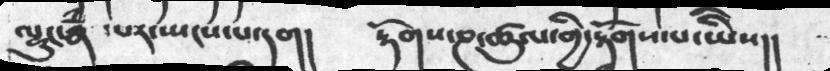ལྷུང་རྣཾ  ་པར་སྤངས་པ་དག།    རྟོགས་ཎ་ཚུལ་གྱི་རྟོགས་པ་ཡིས།།
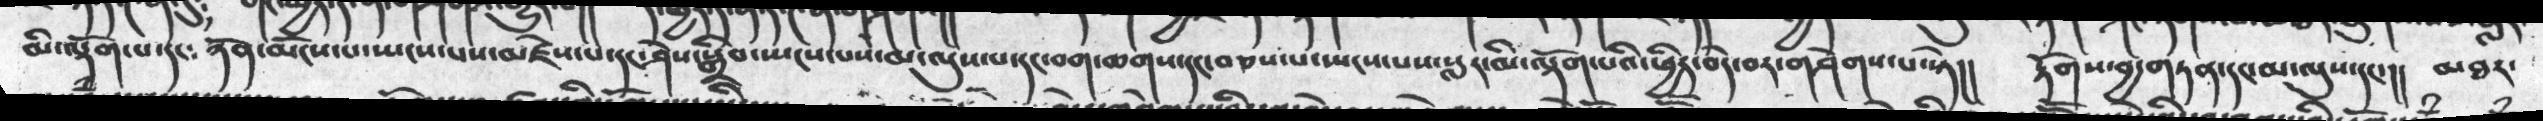མི་ལྡོག་པ་དང༴   ཉོན་མོངས་པ་སྤངས་པས་མཛེས་པ་དང་ཤེས་སྒྲིབ་སྤངས་པས་མ་ལུས་པ་དང་བག་ཆགས་དང་བཅས་པ་སྤངས་པས་སླར་མི་ལྡོག་པའི་ཕྱིར་བདེ་བར་གཤེགས་པ་སྟེ།།  རྟོགས་བྱ་གཏན་དང་མ་ལུས་དང་།།  མཐར་
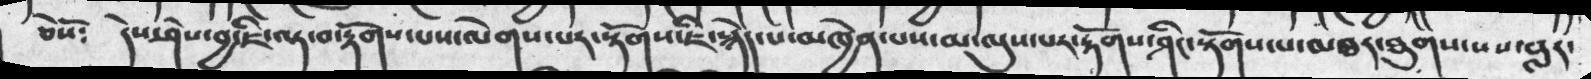ཅེསོ༴  དེས་ཤེས་བྱ་ཇི་ལྟ་བ་རྟོགས་པས་ལེགས་པར་རྟོགས་ཇི་སྙེད་པ་མཁྱེན་པས་མ་ལུས་པར་རྟོགས་ཤིང་རྟོགས་པ་མཐར་ཐུགས་པས་སླར་
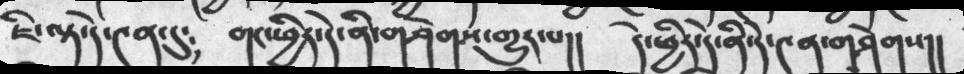ཇི་ལྟ་དེ་༤ན་དུ༴  གང་ཕྱིར་དེ་ནི་གཤེགས་གྱུར་པ།།  དེ་ཕྱིར་དེ་ནི་དེ་༤ན་གཤེགས།།
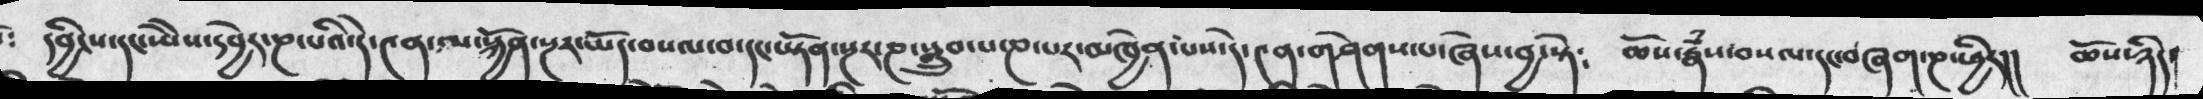༴   དབྱིངས་དང་ཡེེས་དབྱེར་ཎ་པའི་དེ་༤ན་ལ་སྐྱོན་སྔར་ཡོད་བསལ་བ་དང་ཡྟོན་སྔར་ཎ་སྒྲུབ་པ་ཎ་པར་མཁྱེན་པས་དེ་༤ན་གཤེགས་པ་ཞེས་བྱ་སྟེ༴  ཆོས་རྣཾས་བསལ་དང་བཞག་ཎ་ཕྱིར།།  ཆོས་ཉིད་
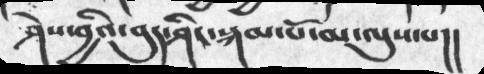ཤེས་བྱའི་བུད་ཤིང་སྐམ་པོ་མ་ལུས་པ།།
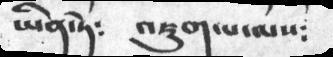ཡིན་ཏེ༴  འཇུག་པ་ལས༴
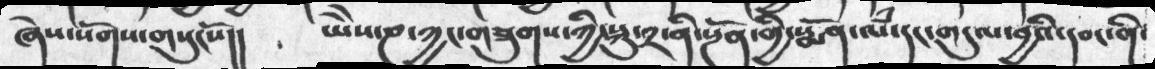ཞེས་སོགས་གསུངསོ།།  ཡཻས་ཎ་ཀྱང་གཟུགས་ཀྱི་སྐུ་༢་ནི་སྔོན་གྱི་སྨོན་ལཾ་དང་གདུལ་བྱའི་དབང་གི་
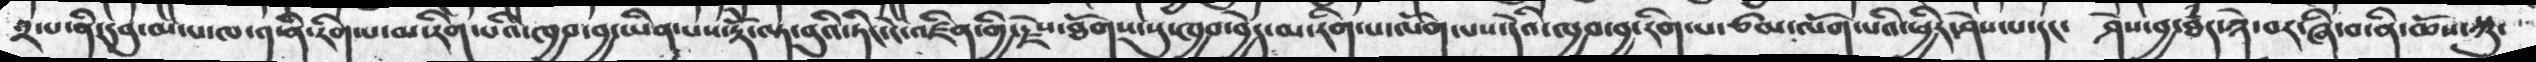༢་པ་ནི་དབུ་མ་པ་ཁ་༡་ནི་རིགས་མ་རིག་པའི་ཁྱབ་བྱ་ཡིན་པས་རྡོེ་ལྟ་བུའི་ཏིང་ངེ་འཛིན་གྱི་རྗེས་ཐོགས་སུ་ཁྱབ་བྱེས་མ་རིག་པ་ལོག་པས་དེའི་ཁྱབ་བྱ་རིག་པ་ཙམ་ལོག་པའི་ཕྱིར་ཤེས་པ་དང་   ཤེས་བྱ་ཐཾད་ཉེ་བར་ཞི་བ་ནི་ཆོས་སྐུ་
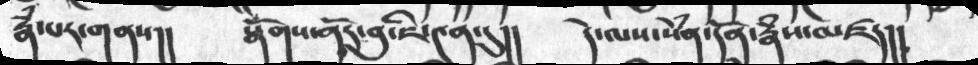རྣཾ་པར་གནས།།  སྣོགས་ནོར་བུ་ཇི་༤ན་དུ།།  དེ་ལས་སེཾན་དོན་རྣཾས་མཛད།།
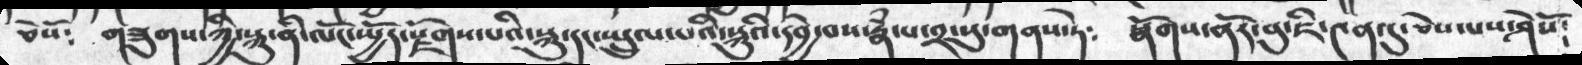ཅེསོ༴  གཟུགས་ཀྱི་སྐུ་ནི་ལོང་སྤྱོད་རྫོགས་པའི་སྐུ་དང་སྤྲུལ་པའི་སྐུའི་དབྱེ་བས་རྣཾ་པ་༢་སུ་གནས་ཏེ༴  སྣོགས་ནོར་བུ་ཇི་༤ན་དུ་ཅེས་པས་ཤེསོ།
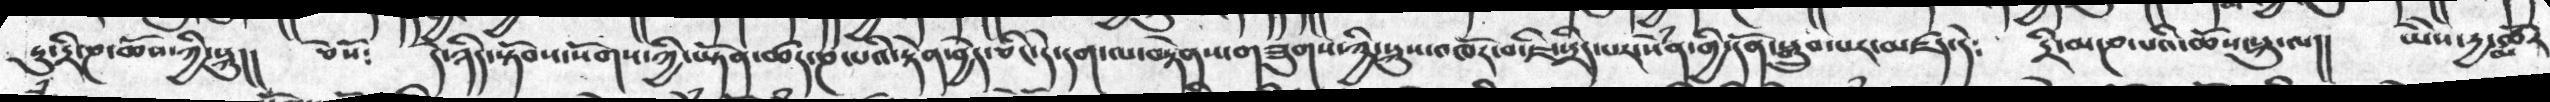ཏུ་དྲི་ཎ་ཆོས་ཀྱི་སྐུ།།   ཅེསོ༴   དེ་ཉིད་སྟོབས་སོགས་ཀྱི་ཡྟོན་ཚད་ཎ་པའི་རྟེན་བྱེད་ཅིང་དེ་དག་ལ་བརྟེནས་གཟུགས་ཀྱིས་སྐུས་འཁོར་བ་ཇི་སྲིད་པར་སེཾས་གྱི་དོན་སྒྲུབ་པར་མཛད་དེ༴   དྲི་མ་ཎ་པའི་ཆོས་སྐུ་ལ།།  ཡེེས་དྱ་མཚོར
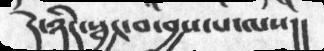དེ་ཉིད་སྦྱང་བ་བྱས་པ་ལས།།
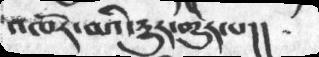འཁོར་བའི་དྱུར་གྱུར་པ།།
